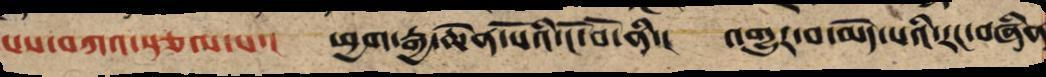པས་བཀའ་སྩལ་པ་། ཕྱག་རྒྱ་ཆེན་པོའི་ངོ་བོ་ནི་།། འགྱུར་བ་མེད་པའི་རང་བཞིན་
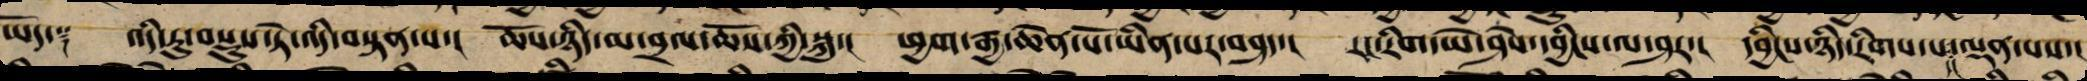ཡོད༑ འདི་རུ་བསྡུས་ཏེ་འདི་བསྟན་པ་། ཆོས་ཉིད་མ་བྲལ་ཆོས་ཀྱི་སྐུ་། ཕྱག་རྒྱ་ཆེན་པོ་ཡིན་པར་བཤད་། རང་རིག་ཡེ་ཤེས་དབྱིངས་ལས་ཤར་། དབྱིངས་ཉིད་རིག་པ་དང་ལྡན་པས་།
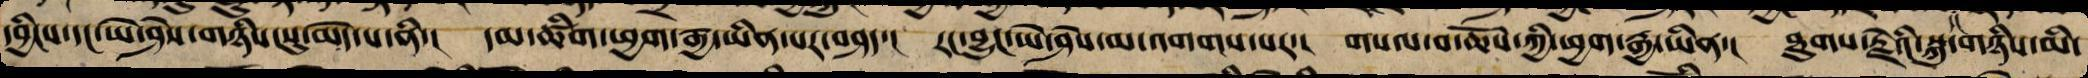དབྱིངས་དང་ཡེ་ཤེས་གཉིས་སུ་མེད་པ་ནི་། དམ་ཚིག་ཕྱག་རྒྱ་ཡིན་པར་བཤད་། རང་བྱུང་ཡེ་ཤེས་མ་འགགས་པར་། གསལ་བ་ཆོས་ཀྱི་ཕྱག་རྒྱ་ཡིན་། ཐུགས་རྗེའི་སྐུ་གཉིས་མི་
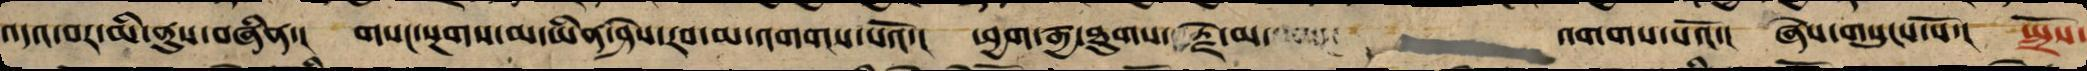འདའ་བར་མི་ནུས་བཞིན་། གསང་སྔགས་མ་ཡིན་ཤེས་རབ་མ་འགགས་པའོ་། ཕྱག་རྒྱ་ཐུགས་རྗེ་མ་  འགགས་པའོ་། ཞེས་གསུངས་སོ་། སྤྲོས་
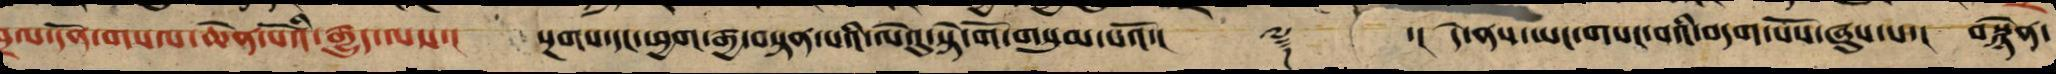བྲལ་དོན་གསལ་ཆེན་པོའི་རྒྱུད་ལས་། སྔགས་དང་ཕྱག་རྒྱ་བསྟན་པའི་ལེའུ་སྟེ་གོ་གསུམ་པའོ་།། ༈ ་།། དེ་ནས་ཡང་གསང་བའི་བདག་པོས་ཞུས་པ་། བསྙེན་
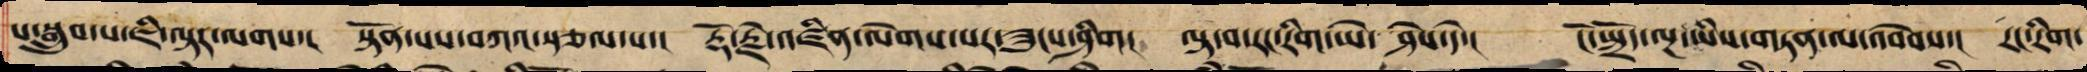པ་སྒྲུབ་པ་ཇི་ལྟར་ལགས་། སྟོན་པས་བཀའ་སྩལ་པ་། རྡོ་རྗེ་འཛིན་པ་ལེགས་པར་ཟུངས་ཤིག། ལྟ་བ་རང་རིག་ཡེ་ཤེས་དེ་། ངོ་སྤྲོད་ལྔ་ཡིས་གཏན་ལ་འབེབས་། རང་རིག་
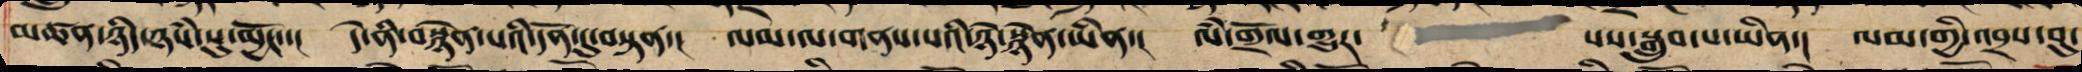མཚན་ཉིད་ཉཾས་སུ་མྱོང་་། དེ་ནི་བསྙེན་པའི་དོན་དུ་བསྟན་། ལམ་ལ་གནས་པ་ཉེ་སྙེན་ཡིན་། ལཾ་གྲོལ་གྱུར་   པས་སྒྲུབ་པ་ཡིན་། ལམ་གྱི་འབྲས་བུ་
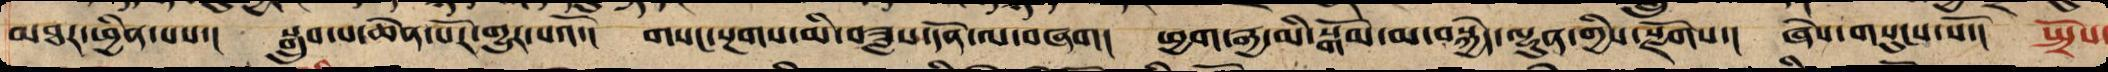མཐར་ཕྱིན་པས་། སྒྲུབ་པ་ཆེན་པོར་གྱུར་པའོ་། གསང་སྔགས་མི་བཟླས་དོན་ལ་བཞག། ཕྱག་རྒྱ་མི་སྒོམ་མ་བསྐྱེད་ལྷུན་གྱིས་སྫོགས་། ཞེས་གསུངས་སོ་། སྤྲོས་
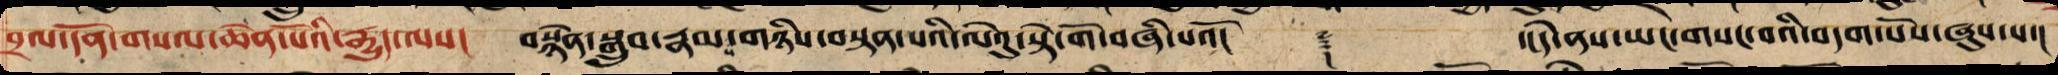བྲལ་དོན་གསལ་ཆེན་པོའི་རྒྱུད་ལས་། བསྙེན་སྒྲུབ་རྣམ་པ་གཉིས་བསྟན་པའི་ལེའུ་སྟེ་གོ་བཞི་པའོ་།། ༈ ་།།དེ་ནས་ཡང་གསང་བའི་བདག་པོས་ཞུས་པ་།
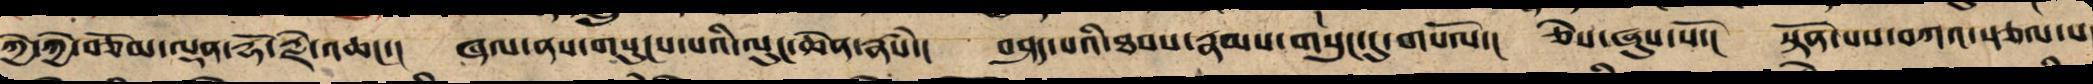ཀྱེ་ཀྱེ་བཅོམ་ལྡན་རྡོ་རྗེ་འཆང་། ཞལ་ནས་གསུངས་པའི་ལུང་ཆེན་རྣཾས། བཤད་པའི་ཐབས་རྣམས་གསུང་དུ་གསོལ་། ཅེས་ཞུས་སོ་། སྟོན་པས་བཀའ་སྩལ་པ
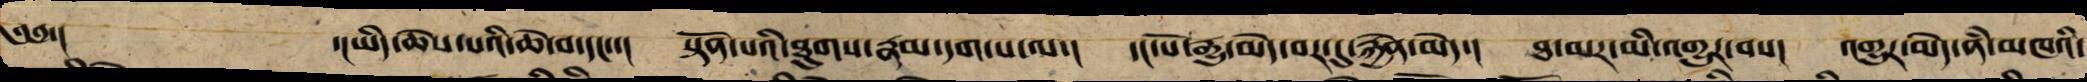༄༅་།   ་།ཡིད་ཆེས་པའི་ཆེ་བ་དང་་། སྟོན་པའི་ཐུགས་རྣམ་དག་པ་ལ་། དང་པོ་རྒྱུ་མེད་བར་དུ་རྐྱེན་མེད་། ཐ་མ་མི་འགྱུར་བས་། འགྱུར་མེད་ནཾ་མཁའི་
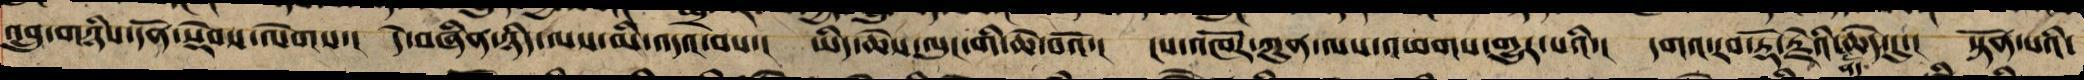འབྲུ་གཉིས་དོན་སྡེབས་ལེགས་། དེ་བཞིན་ཉིད་ལས་མི་འདའ་བས་། ཡིད་ཆེས་ལུང་གིས་ཆེ་བའོ་། །ས་འཁོར་ཀུན་ལས་འཕགས་གྱུར་པའི་། དགའ་རབ་རྡོ་རྗེའི་དོན་ཆེད་དུ་། སྟོན་པའི་
